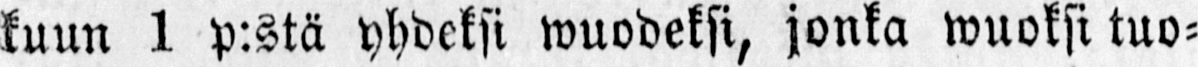kuun 1 p:stä yhdeksi wuodeksi, jonka wuoksi tuo-
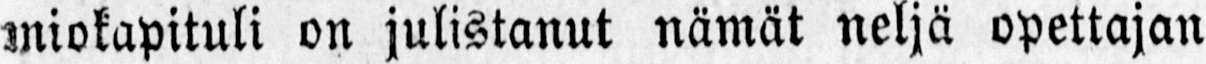miokapituli on julistanut nämät neljä opettajan
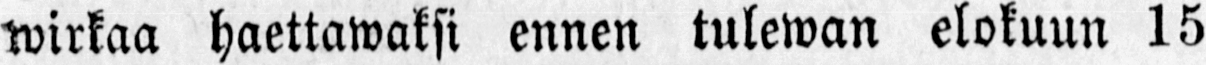wirkaa haettawaksi ennen tulewan elokuun 15
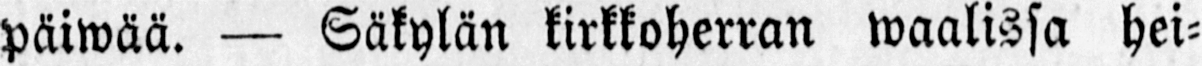päiwää. — Säkylän kirkkoherran waalissa hei-
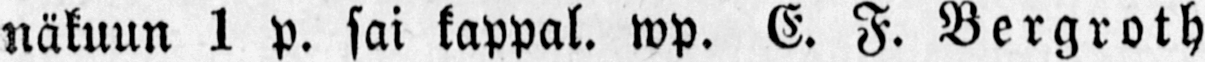näkuun 1 p. sai kappal. wp. E. F. Bergroth
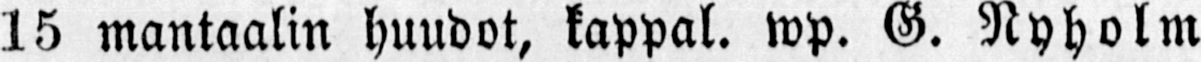15 mantaalin huudot, kappal. wp. G. Nyholm
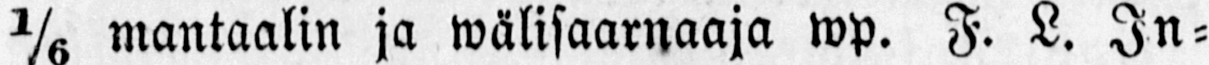⅙ mantaalin ja wälisaarnaaja wp. F. L. In-
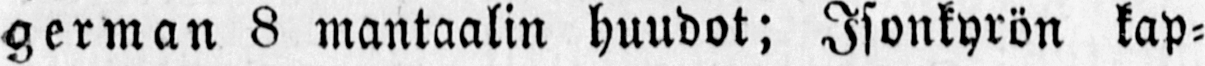german 8 mantaalin huudot; Isonkyrön kap-
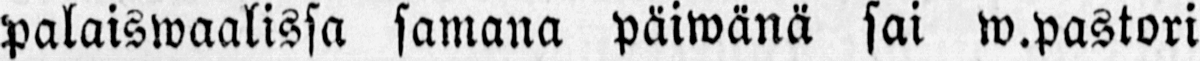palaiswaalissa samana päiwänä sai w.pastori
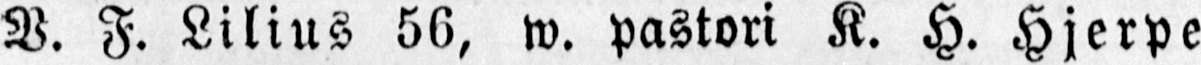V. F. Lilius 56, v. pastori K. H. Hjerpe
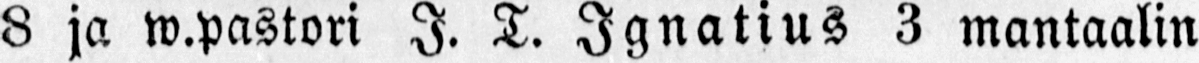8 ja w.pastori I. T. Ignatius 3 mantaalin
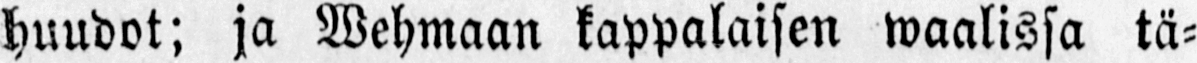huudot; ja Wehmaan kappalaisen waalissa tä-
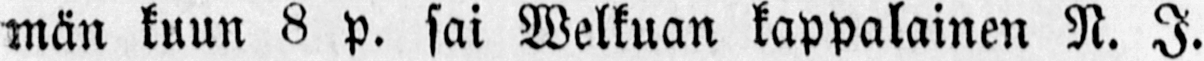män kuun 8 p. sai Welkuan kappalainen N. I.
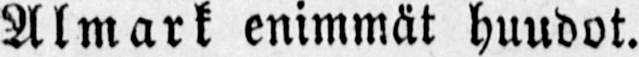Almark enimmät huudot.
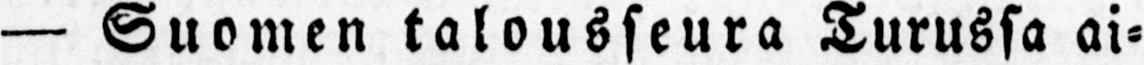— Suomen talousseura Turussa ai-
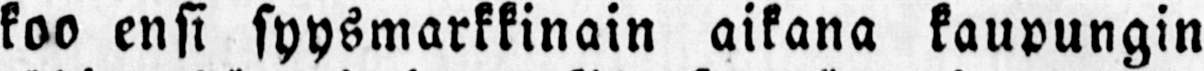koo ensi syysmarkkinain aikana kaupungin
